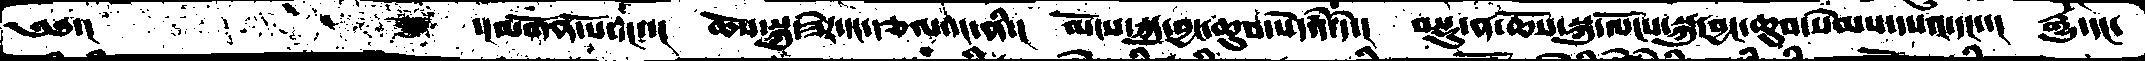༄༅་།          ་།མགོན་པོ་དང་་།  ཆོས་སྐུ་ཟེར་དང་རྩལའང་ནི་།   ལོངས་སྐུ་བྱང་ཆུབ་སེདཾའ་དེ་།  བསྡུ་ན་ཆོས་སྐུ་ལོངས་སྐུ་བྱང་ཆུབ་སེམས་དཔའ་དང་་།  རྒྱུ་དང་
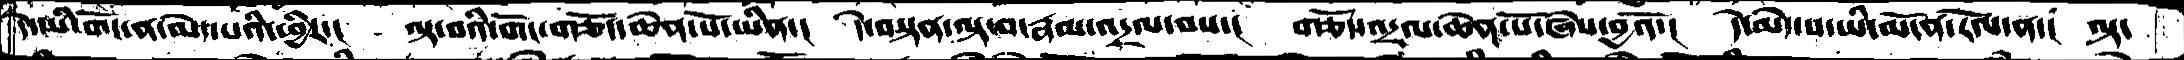དེ་མི་གོང་ན་མེད་པའི་ཕྱིར་།   ལྟ་བའི་གོང་གཅོད་ཆེན་པོ་ཡིན་།  དེ་བསྟན་ལྟ་བ་རྣམ་འདྲལ་བས་།   གཅོད་འདྲལ་ཆེན་པོ་ཞེས་བྱའོ་།  དེ་མེད་པ་ཡི་མངོན་རོལ་ན་།  ལྟ་
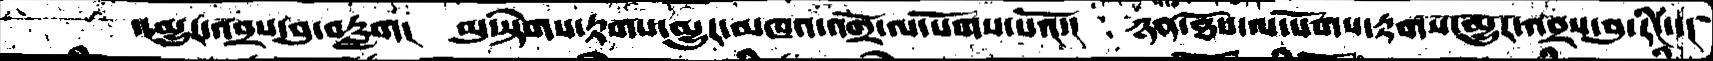་།མྱུར་འབྲས་བུ་བརླག།  མུ་སྟེགས་རྟགས་མྱུར་མཁའ་འགྲོ་ལ་སོགས་པའོ་།   ཉན་ཐོས་ལ་སོགས་རྟགས་མྱུར་འབྲས་བུ་རིང་་།
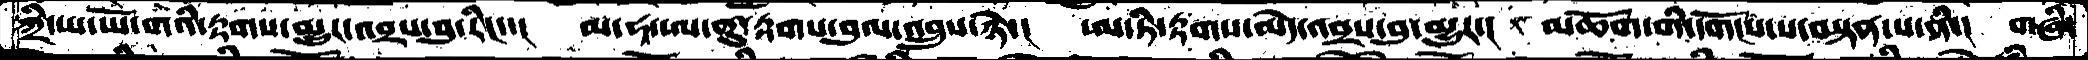ཀྲི་ཡ་ཡོ་གའི་རྟགས་མྱུར་འབྲས་བུ་རིང་་།  མ་ཧཱ་ཨ་ནུ་རྟགས་བུལ་འབྲུས་ཉེ་།  ཨ་ཏི་རྟགས་མེད་འབྲས་བུ་མྱུར་།  མཆོག་གི་དགོངས་པ་བསྟན་པ་ནི་།  གཞི་
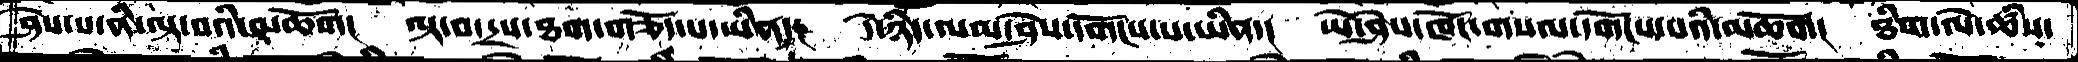ཤེས་པ་ནི་ལྟ་བའི་མཆོག།  ལྟ་བ་དྲས་ཐག་གཅོད་པ་ཡིན་།  དེ་ཉིད་ལམ་ཤེས་དགོངས་པ་ཡིན་།  ཡེ་ཤེས་ཁོང་གསལ་དགོངས་པའི་མཆོག།  ཐིག་ལེ་ཚཾས་
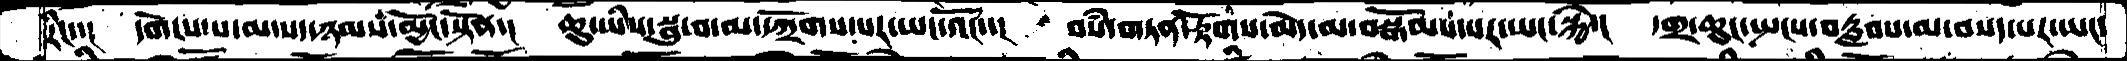རིང་་།  དགོངས་པ་མ་སད་ཉམས་མྱོང་སྟོན་།  ཆུ་ཡིས་སྦུ་བ་མ་དཀྲོགས་པར་ཡང་འོང་།  བསཾ་གཏན་རྟོགས་མེད་མ་བསྒོམས་པར་ཡང་སྐྱེ་།  དགྲ་ཆུང་སྤངས་བརླབས་མ་བསད་པར་ཡང་
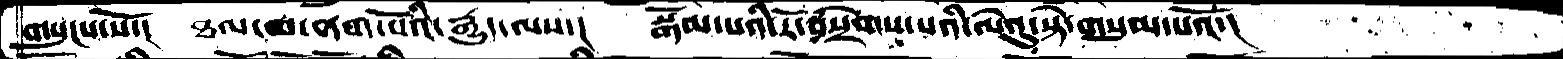གསུངས་སོ་།   ཐལ་བ་ནག་པོའི་རྒྱུད་ལས་།   སྒོམ་པའི་རོ་བསྲེགས་པའི་ལེའུ་སྟེ་གསུམ་པའོ་།
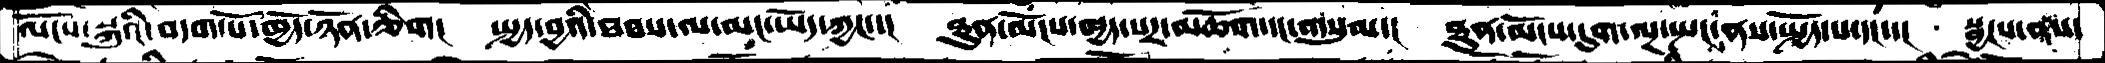ལོངས་སྐུའི་བདག་པོ་ཁྱོད་ཉོན་ཅིག།  སྤྱད་བྱའི་ཐབས་ལ་མང་ཡོད་ཀྱང་་།   ཐུན་མོངས་ཁྱད་པར་མཆོག་དང་གསུམ་།  ཐུན་མོངས་དུག་ལྔ་སྤང་ནས་སྤྱོད་པ་དང་་།  སྦྱངས་ནས་
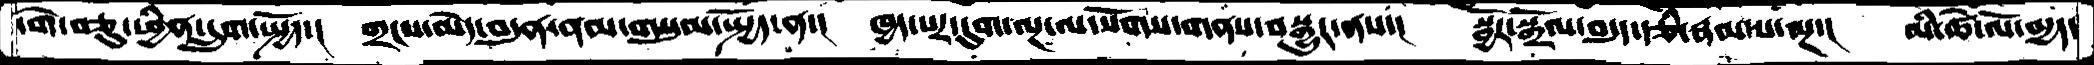དགེ་བཅུ་ཕྱིན་དྲུག་སྤྱོད་།  གྲངས་མེད་བདུན་ནམ་གསུམ་སྤྱོད་ན་།   ཁྱད་པར་དུག་ལྔ་ལ་སོགས་གནས་བསྒྱུར་ནས་།  སྦྱོར་སྒྲོལ་བདུད་རྩི་རྣམ་པ་ལྔ་།  མི་ཚེ་ལོ་བདྱད་
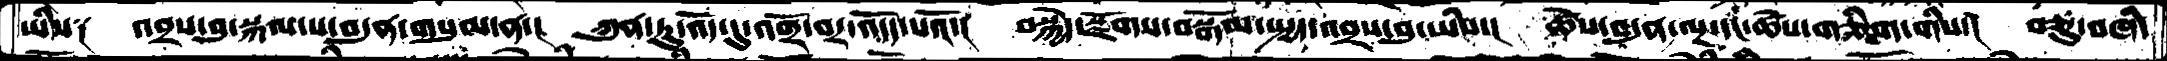ཡིས༑   འབྲས་བུ་སྐལ་པ་བདུན་གསུམ་ན་།   ཀུན་ཏུ་འོད་དུ་འགྲོ་བར་འདོད་པའོ་།  བསྐྱེད་སྫོགས་བསྒོམ་སྤྱད་འབྲས་བུ་ཡིས་།  ཚེས་བདུན་ལྔ་དང་ཚེས་གཅིག་གིས་།   བཅུ་བཞི་
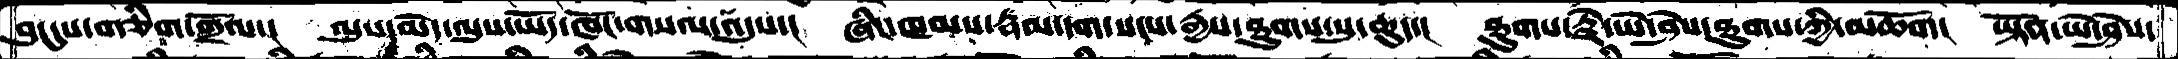བུ་དུས་གཅིག་གྲོལ་།  ལུས་མེད་ལུས་ཡོད་ཁོང་གསལ་འདུས་།  ཞིང་ཁམས་རྣམ་དག་སངས་རྒྱས་ཐུགས་སུ་ཆུད་།  ཐུགས་རྗེ་ཡེ་ཤེས་ཐུགས་ཀྱི་མཆོག།  ཡྟོན་ཡེ་ཤེས་
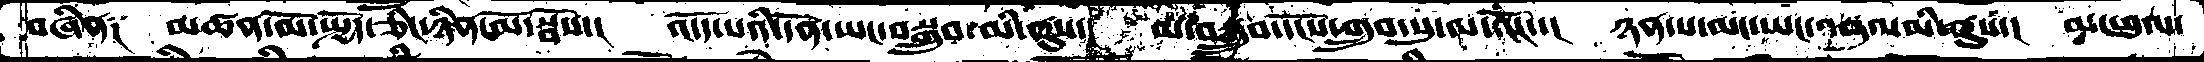བཞིན༑  མཚན་མོ་སྤྱོད་ཅིང་ཉིན་མོ་སྦོས་།  འདོད་པའི་དོན་ཡང་བསྒྲུབ་མི་ནུས་་།  མ་སྒྲུབ་དངོས་གྲུབ་སུ་ལ་འོང་་།  ཉན་པ་མང་ཡང་འབུལ་མི་ནུས་་།  མ་ཕུལ་
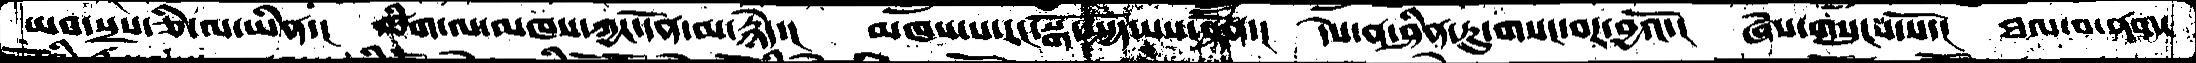ཡབ་སྲས་ཅི་ལ་ཡིན་།  ཚིག་ལ་མཁས་ཀྱང་དོན་མ་རྙེད་།  མཁས་པ་རང་སྒོ་སྤྱོད་པས་ཤོག་།  དེས་ན་ཤིན་ཏུ་གསང་བར་བྱའོ་།  ཞེས་གསུངས་སོ་།  ཐལ་བ་ནག་
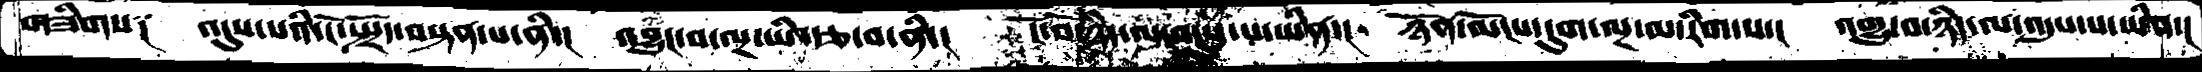གཟིགས༑  འདུས་པའི་ངོ་སྤྲོད་བསྟན་པ་ནི་།  འབྱུང་བ་ལྔ་ཡི་རྩ་བ་ནི་།  ངོ་བོ་ཉིད་ལ་གསུཾ་པ་ཡིན་།  ཉོན་མོངས་དུག་ལྔ་མ་རིག་པ་།  འགྱུ་བ་ཉིད་ལ་འདུས་པ་ཡིན་།
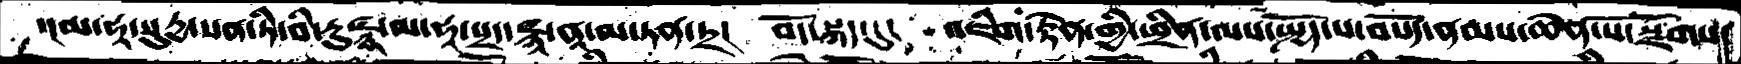་།མ་ཧཱ་སུརྱ་སན་ཏི་བི་རུཛྙཱ་མ་ཧཱ་པྲད་ཛྙཱ་ནཱ་མ་ཏན་ཏྲ།  བོད་སྐད་དུ་།  འཇིག་རྟེན་གྱི་ཕྲིན་ལས་སྤྱོད་པ་བསོད་ནམས་ཆེན་པོ་སྫོགས་།
